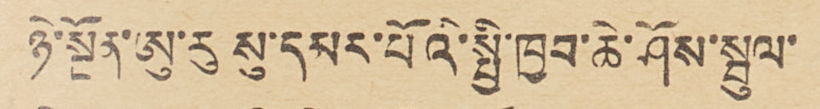ཉེ་སྔོན་ཨུ་རུ སུ་དམར་པོའི་སྤྱི་ཁྱབ་ཆེ་ཤོས་སྦུལ་
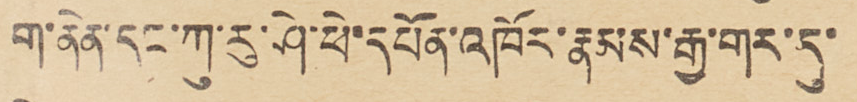ག་ནེན་དང་ཀུ་རུ་ཤེ་ཕེ་དཔོན་འཁོར་རྣམས་རྒྱ་གར་དུ་
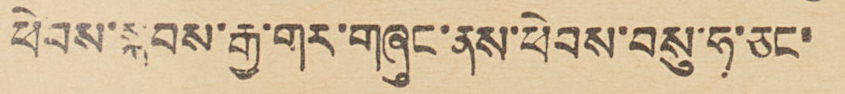ཕེབས་སྐབས་རྒྱ་གར་གཞུང་ནས་ཕེབས་བསུ་ཧ་ཅང་
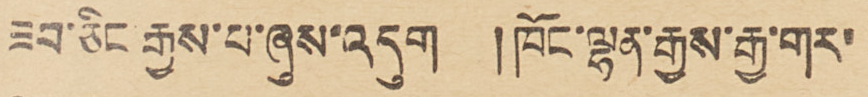ཟབ་ཅིང་རྒྱས་པ་ཞུས་འདུག །ཁོང་ལྷན་རྒྱས་རྒྱ་གར་
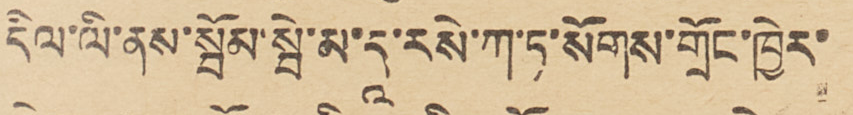དིལ་ལི་ནས་སྦོམ་སྦེ་མ་དཱ་རསེ་ཀ་ཏ་སོགས་གྲོང་ཁྱེར་
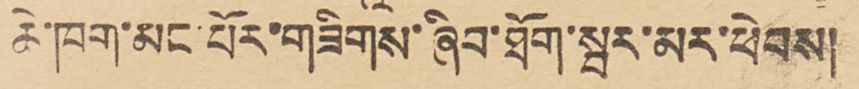ཆེ་ཁག་མང་པོར་གཟིགས་ཞིབ་ཐོག་སྦར་མར་ཕེབས།
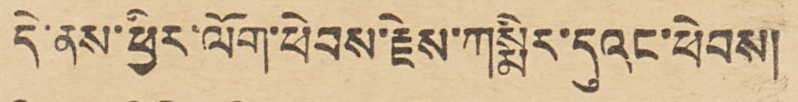དེ་ནས་ཕྱིར་ལོག་ཕེབས་རྗེས་ཀསྨིར་དུའང་ཕེབས།
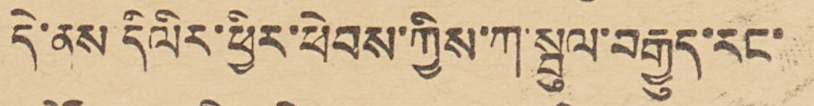དེ་ནས དིལིར་ཕྱིར་ཕེབས་ཀྱིས་ཀ་སྦུལ་བརྒྱུད་རང་
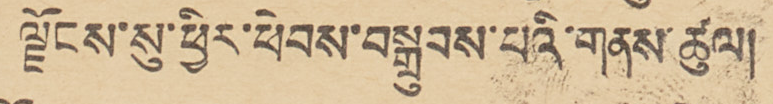ལྗོངས་སུ་ཕྱིར་ཕེབས་བསྒྲུབས་པའི་གནས་ཚུལ།
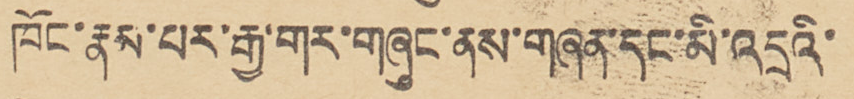ཁོང་རྣམ་པར་རྒྱ་གར་གཞུང་ནས་གཞན་དང་མི་འདྲའི་
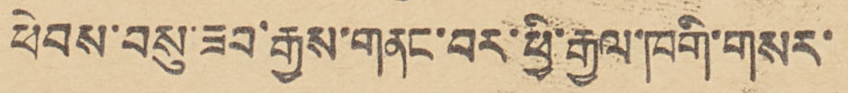ཕེབས་བསུ་ཟབ་རྒྱས་གནང་བར་ཕྱི་རྒྱལ་ཁགི་གསར་
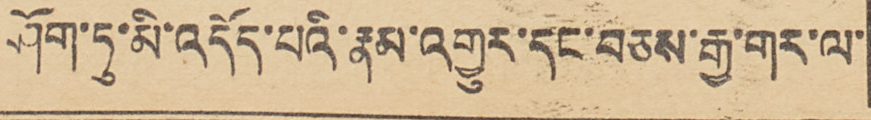ཤོག་ཏུ་མི་འདོད་པའི་རྣམ་འགྱུར་དང་བཅས་རྒྱ་གར་ལ་
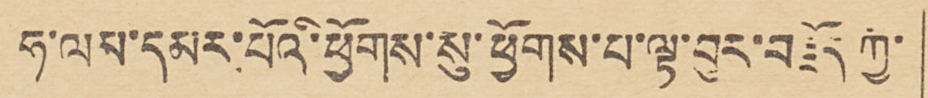ཧ་ལམ་དམར་པོའི་ཕྱོགས་སུ་ཕྱོགས་པ་ལྟ་བུར་བརྗོད ཀྱི་
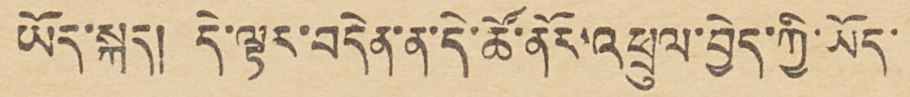ཡོད་སྐད། དེ་ལྟར་བདེན་ན་དེ་ཚོ་ནོར་འཕྲུལ་བྱེད་ཀྱི་ཡོད་
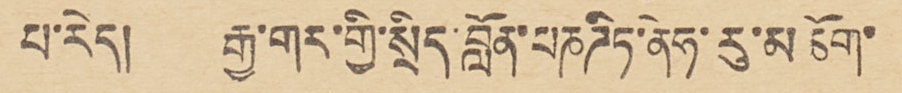པ་རེད།     རྒྱ་གར་གྱི་སྲིད་བློན་པཎཌིཏ་ནེཧ་རུ་མཆོག་
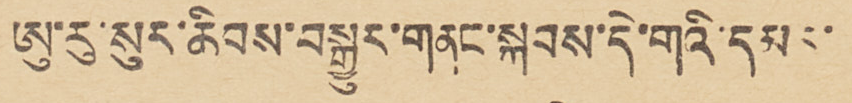ཨུ་རུ་སུར་ཆིབས་བསྒྱུར་གནང་སྐབས་དེ་གའི་དམར་
